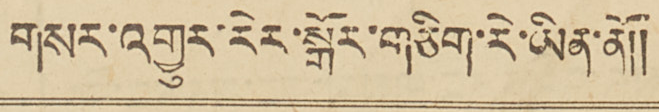གསར་འགྱུར་རེར་སྒོར་གཅིག་རེ་ཡིན་ནོ།།
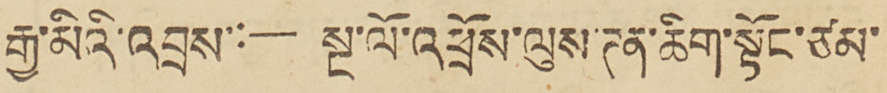རྒྱ་མིའི་འབྲས་:— སྔ་ལོ་འཕྲོས་ལུས་ཊན་ཆིག་སྟོང་ཙམ་
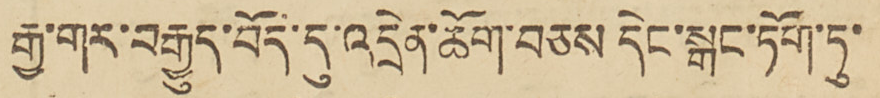རྒྱ་གར་བརྒྱུད་བོད་དུ་འདྲེན་ཆོག་བཅས དེང་སྒང་ཏོག་ཏུ་
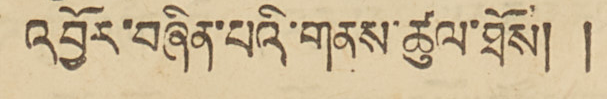འབྱོར་བཞིན་པའི་གནས་ཚུལ་ཐོས།།
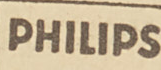PHILIPS
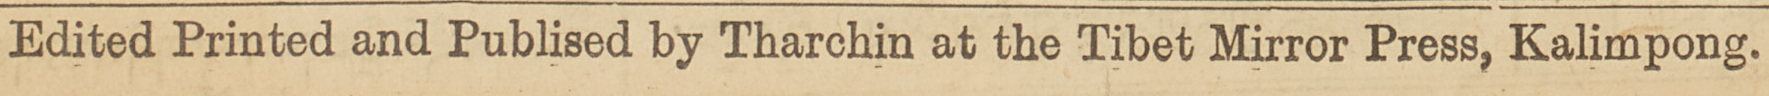Edited Printed and Published by Tharchin at the Tibet Mirror Press, Kalimpong.
